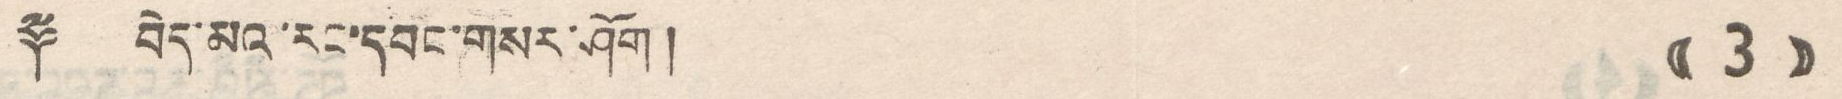༈ བེད་མའ་རང་དབང་གསར་ཤོག ། (( 3 ))
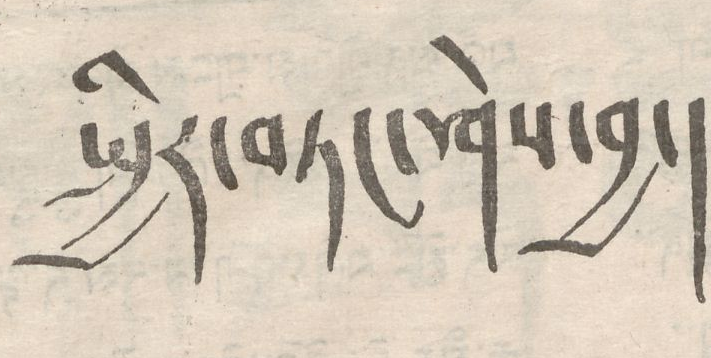སྤྱིར་བཏང་ཤེས་བྱ།
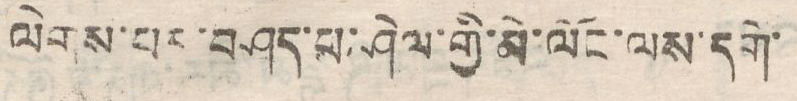ལེགས་པར་བཤད་པ་ཤེལ་གྱི་མེ་ལོང་ལས་དགེ་
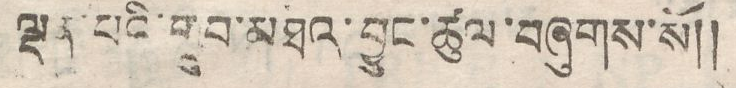ལྡན་པའི་གྲུབ་མཐའ་བྱུང་ཚུལ་བཞུགས་སོ།།
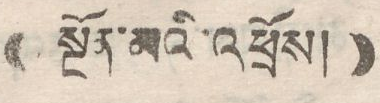(( སྔོན་མའི་འཕྲོས། ))
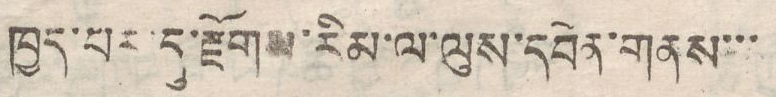ཁྱད་པར་དུ་རྫོགས་རིམ་ལ་ལུས་དབེན་གནས་་་
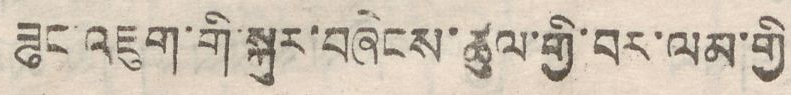ཟུང་འཇུག་གི་སྐུར་བཞེངས་ཚུལ་གྱི་བར་ལམ་གྱི
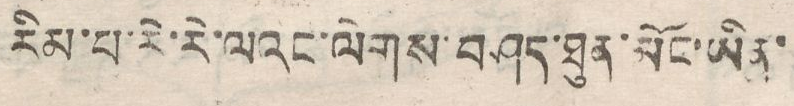རིན་པ་རེ་རེ་ལའང་ལེགས་བཤད་ཐུན་མོང་ཡིན་
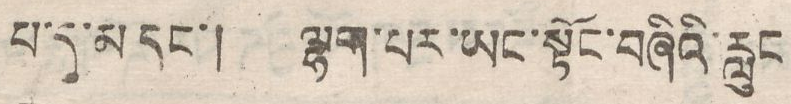པ་དུ་མ དང། ལྷག་པར་ཡང་སྟོང་བཞིའི་རླུང
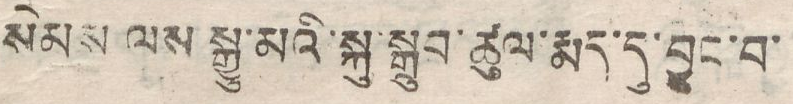སེམས ལས་སྒྱུ་མའི་སྐུ་སྒྲུབ་ཚུལ་རྨད་དུ་བྱུང་བ་
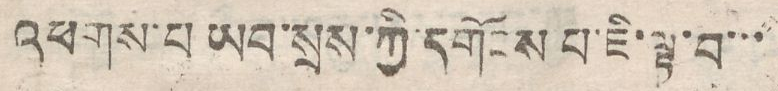འཕགས་པ ཡབ་སྲས་ཀྱི་དགོངས་པ་ཇི་ལྟ་བ་་་
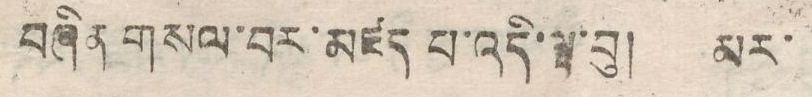བཞིན གསལ་བར་མཛད པ་འདི་ལྟ་བུ། མར་
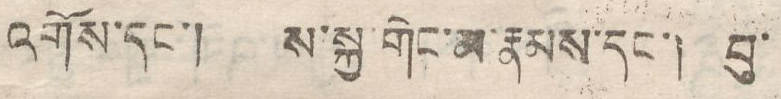འགོས་དང་། ས་སྐྱ་གེང་མ་རྣམས་དང་། བུ་
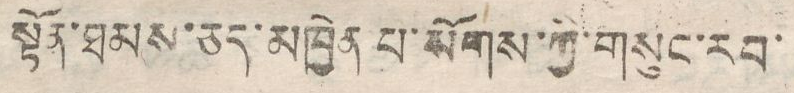སྟོན་ཐམས་ཅད་མཁྱེན པ་སོགས་ཀྱི་གསུང་རབ་
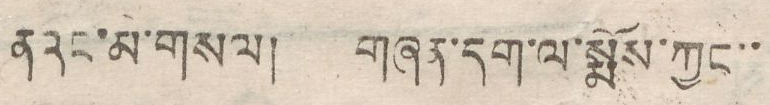ནའང་མི་གསལ། གཞན་དག་ལ་སྨོས་ཀྱང་་
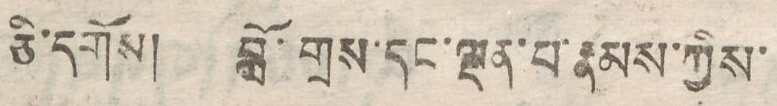ཅི་དགོས། བློ་གྲས་དང་ལྡན་པ་རྣམས་ཀྱིས་
